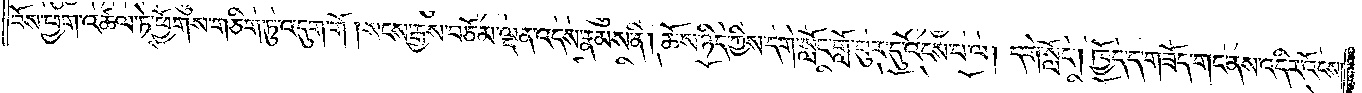བོས་ཕྱག་འཚལ་ཏེ་ཕྱོགས་གཅིག་ཏུ་འདུག་གོ །སངས་རྒྱས་བཅོམ་ལྡན་འདས་རྣམས་ནི། ཆོས་ཉིད་ཀྱིས་དགེ་སློང་གློ་བུར་དུ་འོངས་པ་ལ། དགེ་སློང༌། ཁྱོད་ད་གཟོད་གང་ནས་འདིར་འོངས།
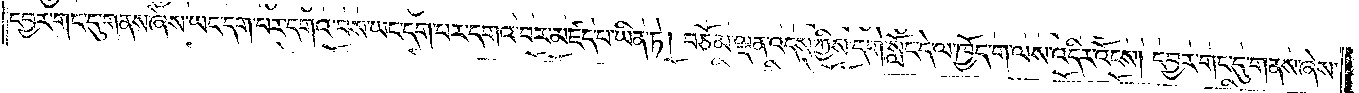དབྱར་གང་དུ་གནས་ཞེས་ཡང་དག་པར་དགའ་བས་ཡང་དག་པར་དགའ་བར་མཛད་པ་ཡིན་ཏེ། བཅོམ་ལྡན་འདས་ཀྱིས་དགེ་སློང་དེ་ལ་ཁྱོད་ག་ལས་འདིར་འོངས། དབྱར་གང་དུ་གནས་ཞེས་
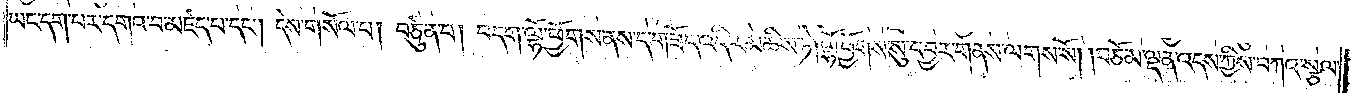ཡང་དག་པར་དགའ་བ་མཛད་པ་དང༌། དེས་གསོལ་པ། བཙུན་པ། བདག་ལྷོ་ཕྱོགས་ནས་ད་གཟོད་འདིར་མཆིས་ཏེ། ལྷོ་ཕྱོགས་སུ་དབྱར་གནས་ལགས་སོ། །བཅོམ་ལྡན་འདས་ཀྱིས་བཀའ་སྩལ་
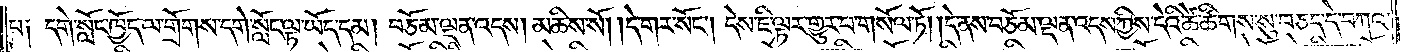པ༑ དགེ་སློང་ཁྱོད་ལ་གྲོགས་དགེ་སློང་ལྟ་ཡོད་དམ། བཅོམ་ལྡན་འདས། མཆིས་སོ། །དེ་གར་སོང༌། །དེས་ཇི་ལྟར་གྱུར་པ་གསོལ་ཏོ། །དེ་ནས་བཅོམ་ལྡན་འདས་ཀྱིས་དེའི་ཚེ་ཚིགས་སུ་བཅད་དེ་བཀའ་
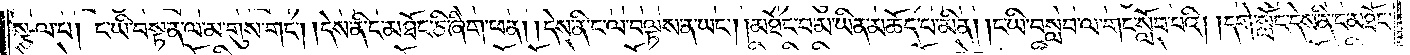སྩལ་པ། ང་ཡི་བསྟན་ལམ་གུས་གང༌། །དེས་ནི་ང་མཐོང་ཅི་ཞིག་ཕན། །དེས་ནི་ང་ལ་བལྟས་ན་ཡང༌། །མཐོང་བ་མ་ཡིན་མཆོད་པ་མིན། །ང་ཡི་བསླབ་ལ་གང་སློབ་པའི། །དགེ་སློང་དེས་ནི་ང་མཐོང་
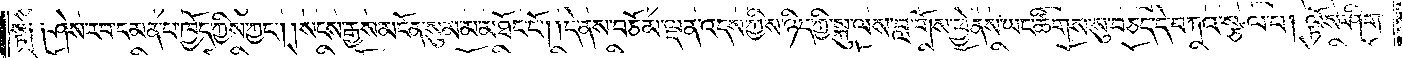སྟེ༑ ༑ཤེས་རབ་དམན་པ་ཁྱོད་ཀྱིས་ཀྱང༌། །སངས་རྒྱས་མངོན་སུམ་མ་མཐོང་ངོ༌། །དེ་ནས་བཅོམ་ལྡན་འདས་ཀྱིས་ཉིད་ཀྱི་སྐུ་ལས་བླ་གོས་ཕྱེ་ནས་ཡང་ཚིགས་སུ་བཅད་དེ་བཀའ་སྩལ་པ། ལྟོས་ཤིག་
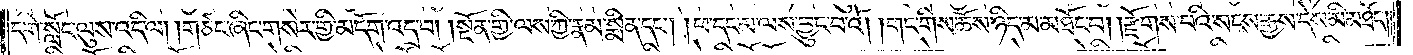དགེ་སློང་ལུས་འདི་ལ། །གཙང་ཞིང་གསེར་གྱི་མདོག་འདྲ་བ། །སྔོན་གྱི་ལས་ཀྱི་རྣམ་སྨིན་དང༌། །ཕ་དང་མ་ལས་བྱུང་བའོ། །གང་གིས་ཆོས་ཉིད་མ་མཐོང་བ། །རྫོགས་པའི་སངས་རྒྱས་དེས་མི་མཐོང༌།
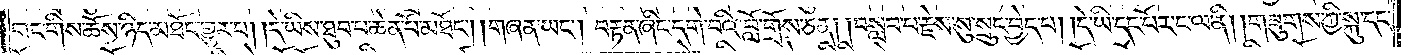གང་གིས་ཆོས་ཉིད་མཐོང་གྱུར་པ། །དེ་ཡིས་ཐུབ་པ་ཆེན་པོ་མཐོང༌། །གཞན་ཡང༌། བརྟན་ཞིང་དགེ་བའི་བློ་གྲོས་ཅན། །བསླབ་པ་རྗེས་སུ་སྲུང་བྱེད་པ། །དེ་ཡི་དང་པོར་ང་ལ་ནི། །གཟུགས་ཀྱི་སྐུ་དང་
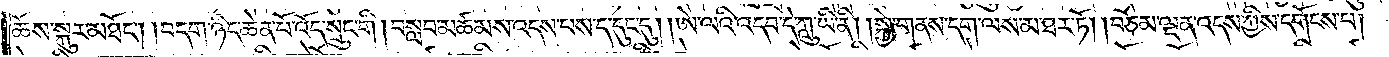ཆོས་སྐུར་མཐོང༌། །བདག་ཉིད་ཆེན་པོ་འོད་སྲུང་གི །བསླབ་མཚམས་འདས་པས་ད་དུང་དུ། །ཨེ་ལའི་འདབ་དེ་ཀླུ་ཡི་ནི། །སྐྱེ་གནས་དག་ལས་མ་ཐར་ཏོ། །བཅོམ་ལྡན་འདས་ཀྱིས་དགོངས་པ།
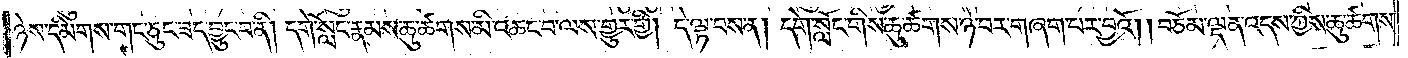ཉེས་དམིགས་གང་ཅུང་ཟད་བྱུང་བ་ནི། དགེ་སློང་རྣམས་ཆུ་ཚགས་མི་འཆང་བ་ལས་གྱུར་གྱི། དེ་ལྟ་བས་ན། དགེ་སློང་གིས་ཆུ་ཚགས་ཉེ་བར་གཞག་པར་བྱའོ། །བཅོམ་ལྡན་འདས་ཀྱིས་ཆུ་ཚགས་
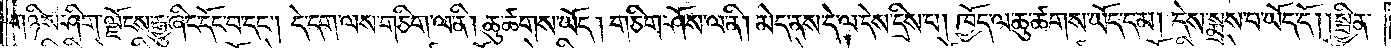གཉིས་ཤིག་ལྗོངས་རྒྱུ་ཞིང་དོང་བ་དང༌། དེ་དག་ལས་གཅིག་ལ་ནི། ཆུ་ཚགས་ཡོད། གཅིག་ཤོས་ལ་ནི། མེད་ནས་དེ་ལ་དེས་དྲིས་པ། ཁྱོད་ལ་ཆུ་ཚགས་ཡོད་དམ། དེས་སྨྲས་པ་ཡོད་དོ། །སྦྱིན་
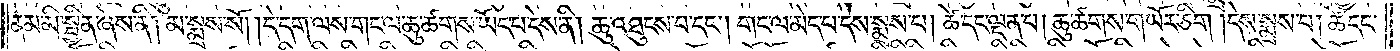ནམ་མི་སྦྱིན་ཞེས་ནི། མ་སྨྲས་སོ། །དེ་དག་ལས་གང་ལ་ཆུ་ཚགས་ཡོད་པ་དེས་ནི། ཆུ་འཐུངས་པ་དང༌། གང་ལ་མེད་པ་དེས་སྨྲས་པ། ཚེ་དང་ལྡན་པ། ཆུ་ཚགས་གཡོར་ཅིག །དེས་སྨྲས་པ། ཚེ་དང་
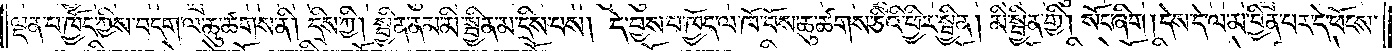ལྡན་པ་ཁྱོད་ཀྱིས་བདག་ལ་ཆུ་ཚགས་ནི། །དྲིས་ཀྱི། སྦྱིན་ནམ་མི་སྦྱིན་མ་དྲིས་པས། དེ་བྱས་པ་ཁྱོད་ལ་ཁོ་བོས་ཆུ་ཚགས་ཅིའི་ཕྱིར་སྦྱིན། མི་སྦྱིན་གྱི། སོང་ཞིག །དེས་དེ་ལ་མ་བྱིན་པར་དེ་ཕོངས་
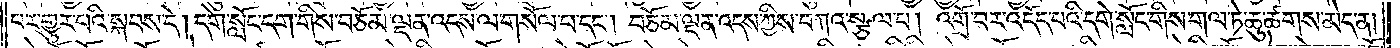པར་གྱུར་པའི་སྐབས་དེ། དགེ་སློང་དག་གིས་བཅོམ་ལྡན་འདས་ལ་གསོལ་བ་དང༌། བཅོམ་ལྡན་འདས་ཀྱིས་བཀའ་སྩལ་པ། འགྲོ་བར་འདོད་པའི་དགེ་སློང་གིས་གལ་ཏེ་ཆུ་ཚགས་མེད་ན།
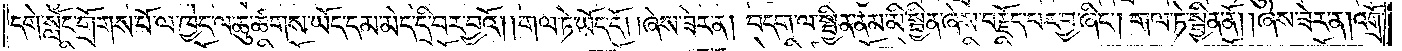དགེ་སློང་གྲོགས་པོ་ལ་ཁྱེད་ལ་ཆུ་ཚགས་ཡོད་དམ་མེད་དྲི་བར་བྱའོ། །གལ་ཏེ་ཡོད་དོ། །ཞེས་ཟེར་ན། བདག་ལ་སྦྱིན་ནམ་མི་སྦྱིན་ཞེས་བརྗོད་པར་བྱ་ཞིང༌། གལ་ཏེ་སྦྱིན་ནོ། །ཞེས་ཟེར་ན། འགྲོ་
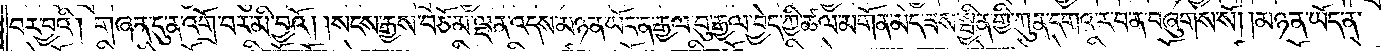བར་བྱའི། གཞན་དུ་ན་འགྲོ་བར་མི་བྱའོ། །སངས་རྒྱས་བཅོམ་ལྡན་འདས་མཉན་ཡོད་ན་རྒྱལ་བུ་རྒྱལ་བྱེད་ཀྱི་ཚལ་མགོན་མེད་ཟས་སྦྱིན་གྱི་ཀུན་དགའ་ར་བ་ན་བཞུགས་སོ། །མཉན་ཡོད་ན་
